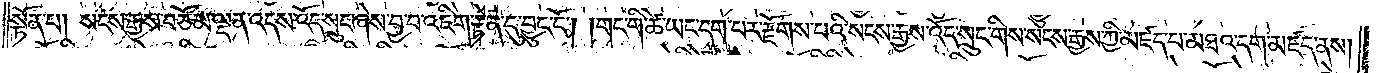སྟོན་པ། སངས་རྒྱས་བཅོམ་ལྡན་འདས་འོད་སྲུང་ཞེས་བྱ་བ་འཇིག་རྟེན་དུ་བྱུང་ངོ༌། །གང་གི་ཚེ་ཡང་དག་པར་རྫོགས་པའི་སངས་རྒྱས་འོད་སྲུང་གིས་སངས་རྒྱས་ཀྱི་མཛད་པ་མཐའ་ད་མཛད་ནས།
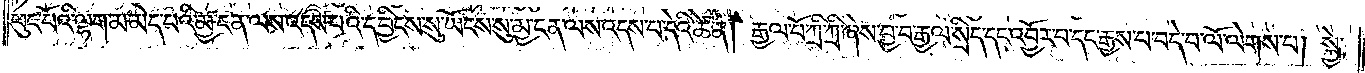ཕུང་པོའི་ལྷག་མ་མེད་པའི་མྱ་ངན་ལས་འདས་པའི་དབྱིངས་སུ་ཡོངས་སུ་ལས་འདས་པ་དེའི་ཚེ་ན། རྒྱལ་པོ་ཀྲི་ཀྲི་ཞེས་བྱ་བ་རྒྱལ་སྲིད་དང་འབྱོར་པ་དང་རྒྱས་པ་བདེ་བ་ལོ་ལེགས་པ། སྐྱེ་
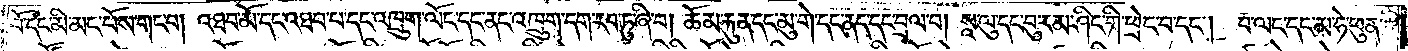བོ་དང་མི་མང་པོས་གང་བ། འཐབ་མོ་དང་འཐབ་པ་དང་འཁྲུག་ལོང་དང་ནང་འཁྲུག་དག་རབ་ཏུ་ཞི་བ། ཆོམ་རྐུན་དང་མུ་གེ་དང་ནད་དང་བྲལ་བ། སཱ་ལུ་དང་བུ་རམ་ཤིང་གི་ཕྲེང་བ་དང༌། བ་ལང་དང་མ་ཧེ་ཕུན་
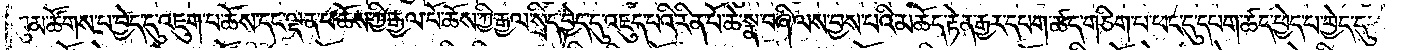སུམ་ཚོགས་པ་བྱེད་དུ་འཇུག་པ་ཆོས་དང་ལྡན་པ་ཆོས་ཀྱི་རྒྱལ་པོ་ཆོས་ཀྱི་རྒྱལ་སྲིད་བྱེད་དུ་འཇུད་པའི་རིན་པོ་ཆེ་སྣ་བཞི་ལས་བྱས་པའི་མཆོད་རྟེན་རྒྱར་དཔག་ཚད་གཅིག་པ་ཕང་དུ་དཔག་ཚད་ཕྱེད་པ་བྱེད་དུ་
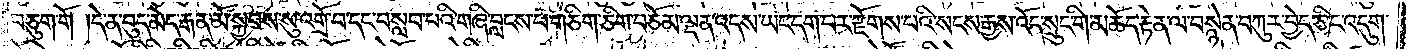བཅུག་གོ །དེ་ན་བུད་མེད་རྒན་མོ་སྐྱབས་སུ་འགྲོ་བ་དང་བསླབ་པའི་གཞི་བླངས་པ་གཅིག་ཅིག་བཅོམ་ལྡན་འདས་ཡང་དག་པར་རྫོགས་པའི་སངས་རྒྱས་འོད་སྲུང་གི་མཆོད་རྟེན་ལ་བསྙེན་བཀུར་བྱེད་ཅིང་འདུག་
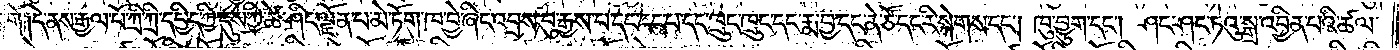གོ །དེ་ནས་རྒྱལ་པོ་ཀྲི་ཀྲི་དཔྱིད་ཀྱི་དུས་ཀྱི་ཚེ་ཤིང་ལྗོན་པ་མེ་ཏོག་ཁ་བྱེ་ཞིང་འབྲས་བུ་རྒྱས་པ་དང་ངང་པ་དང་ཁྲུང་ཁྲུང་དང་རྨ་བྱ་དང་ནེ་ཙོ་དང་རི་སྐེགས་དང༌། ཁུ་བྱུག་དང༌། ཤང་ཤང་ཏེའུ་སྒྲ་འབྱིན་པའི་ཚལ་
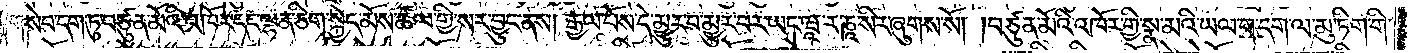གསེབ་དག་ཏུ་བཙུན་མོའི་འཁོར་དང་ལྷན་ཅིག་སྐྱེད་མོས་ཚལ་གྱི་སར་བྱུང་ནས། རྒྱལ་པོས་དེ་མྱུར་བ་མྱུར་བར་ཡང་ཝཱ་ར་ཎཱ་སིར་ཞུགས་སོ། །བཙུན་མོའི་འཁོར་གྱི་སྣ་མའི་ཡལ་ག་དག་ལ་མུ་ཏིག་གི་
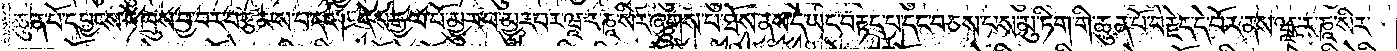ཆུན་པོ་དཔྱངས་ཏེ་ཁྲུས་བྱ་བར་བརྩམས་པ་དང༌། དེས་རྒྱལ་པོ་མྱུར་བ་མྱུར་བར་ཝཱ་ར་ཎཱ་སིར་ཞུགས་པ་ཐོས་ནས་དེ་ཡང་བརྟད་པ་དང་བཅས་པས་མུ་ཏིག་གི་ཆུན་པོ་བརྗེད་དེ་པོར་ནས་ཝཱ་ར་ཎཱ་སིར་
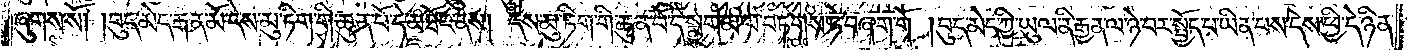ཞུགས་སོ། །བུད་མེད་རྒན་མོ་དེས་མུ་ཏིག་གི་ཆུན་པོ་དེ་མཐོང་ནས། དེས་མུ་ཏིག་གི་ཆུན་པོ་དེ་སྨྱུག་མ་ལ་བཏགས་ཏེ་བཞག་གོ །བུད་མེད་ཀྱི་ཡུལ་ནི་རྒྱན་ལ་ཉེ་བར་སྤྱོད་པ་ཡིན་པས་དེས་ཕྱི་དེ་ཉིན་
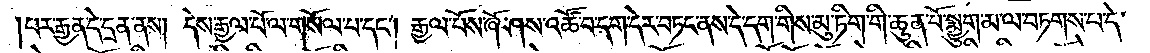པར་རྒྱན་དེ་དྲན་ནས། དེས་རྒྱལ་པོ་ལ་གསོལ་པ་དང༌། རྒྱལ་པོ་ཞོ་ཤས་འཚོ་བ་དག་དེར་བཏང་ནས་དེ་དག་གིས་མུ་ཏིག་གི་ཆུན་པོ་སྨྱུག་མ་ལ་བཏགས་པ་དེ་
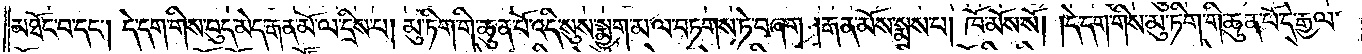མཐོང་བ་དང༌། དེ་དག་གིས་བུད་མེད་རྒན་མོ་ལ་དྲིས་པ། མུ་ཏིག་གི་ཆུན་པོ་འདི་སུས་སྨྱུག་མ་ལ་བཏགས་ཏེ་བཞག །རྒན་མོས་སྨྲས་པ། ཁོ་མོས་སོ། །དེ་དག་གིས་མུ་ཏིག་གི་ཆུན་པོ་དེ་རྒྱལ་
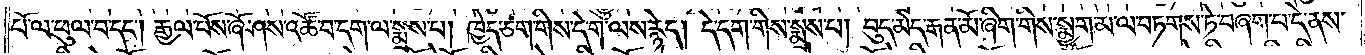པོ་ལ་ཕུལ་བ་དང༌། རྒྱལ་པོས་ཞོ་ཤས་འཚོ་བ་དག་ལ་སྨྲས་པ། ཁྱེད་ཅག་གིས་དེ་ག་ལས་རྙེད། དེ་དག་གིས་སྨྲས་པ། བུད་མེད་རྒན་མོ་ཞིག་གིས་སྨྱུག་མ་ལ་བཏགས་ཏེ་བཞག་པ་དེ་ནས་
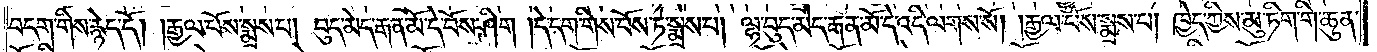བདག་གིས་རྙེད་དོ། །རྒྱལ་པོས་སྨྲས་པ། བུད་མེད་རྒན་མོ་དེ་བོས་ཤིག །དེ་དག་གིས་བོས་ཏེ་སྨྲས་པ། ལྷ་བུད་མེད་རྒན་མོ་དེ་འདི་ལགས་སོ། །རྒྱལ་པོས་སྨྲས་པ། ཁྱེད་ཀྱིས་མུ་ཏིག་གི་ཆུན་
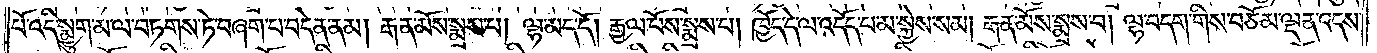པོ་འདི་སྨྱུག་མ་ལ་བཏགས་ཏེ་བཞག་པ་བདེན་ནམ། རྒན་མོས་སྨྲས་པ། ལྷ་མད་དོ། །རྒྱལ་པོས་སྨྲས་པ། ཁྱོད་དེ་ལ་འདོད་པ་མ་སྐྱེས་སམ། རྒན་མོས་སྨྲས་པ། ལྷ་བདག་གིས་བཅོམ་ལྡན་འདས་
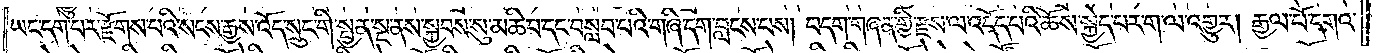ཡང་དག་པར་རྫོགས་པའི་སངས་རྒྱས་འོད་སྲུང་གི་སྤྱན་སྔ་ནས་སྐྱབས་སུ་མཆི་བ་དང་བསླབ་པའི་གཞི་དག་བླངས་པས། བདག་གཞན་གྱི་རྫས་ལ་འདོད་པའི་ཆོས་སྐྱེད་པར་ག་ལ་འགྱུར། རྒྱལ་པོ་དགའ་
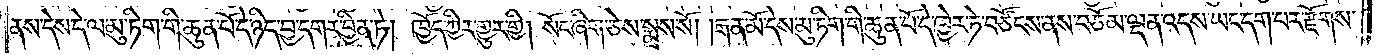ནས་དེས་དེ་ལ་མུ་ཏིག་གི་ཆུན་པོ་དེ་ཉིད་བྱ་དགའ་བྱིན་ཏེ། ཁྱོད་ཀྱིར་གྱུར་གྱི། སོང་ཞིག་ཅེས་སྨྲས་སོ། །རྒན་མོ་དེས་མུ་ཏིག་གི་ཆུན་པོ་དེ་ཁྱེར་ཏེ་བཙོངས་ནས་བཅོམ་ལྡན་འདས་ཡང་དག་པར་རྫོགས་
